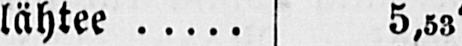lähtee 5,53’
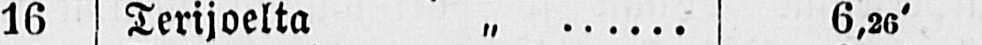16 Terijoelta „ 6,26’
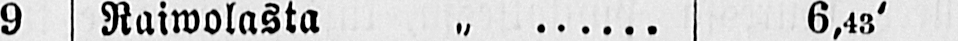9 Raiwolasta „ 6,43’
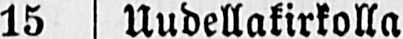15 Uudellakirkolla
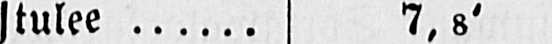tulee 7,8’
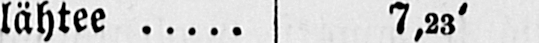lähtee 7,23’
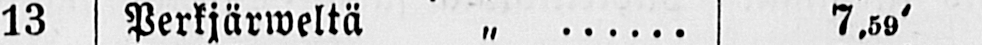13 Perkjärweltä „ 7,59’
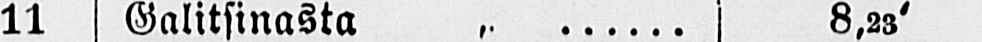11 Galitsinasta „ 8,23’
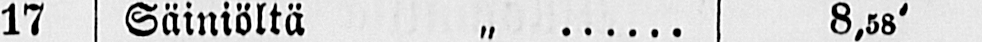17 Säiniöltä „ 8,58’
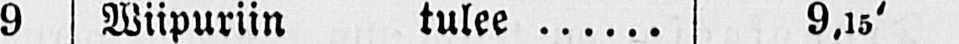9 Wiipuriin tulee 9,15’
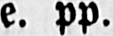e. PP-
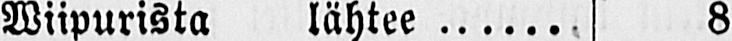Wiipurista lähtee 8
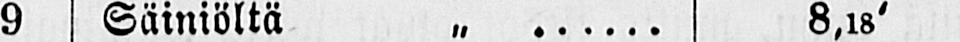9 Säiniöltä „ 8.18’
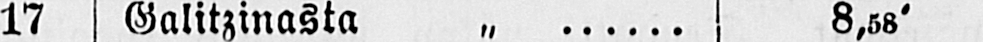17 Galitzinasta „ 8,58’
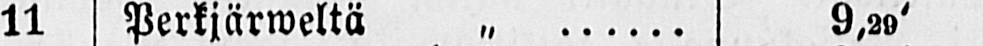11 Perkjärweltä „ 9,29’
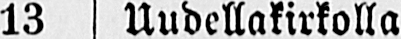13 Uudellakirkolla
